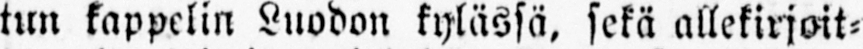tun kappelin Luodon kylässä, sekä allekirjoit-
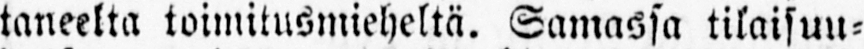taneelta toimitusmieheltä. Samassa tilaisuu-
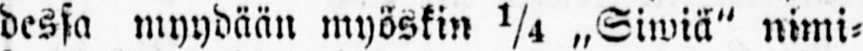dessa myydään myöskin ¼ „Siwiä" nimi-
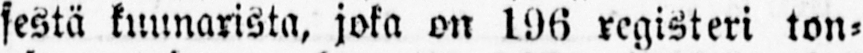sestä kuunarista, joka on 196 rekisteri ton-
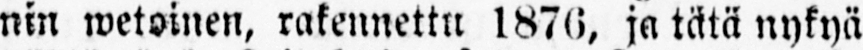nin wetoinen, rakennettu 1876, ja tätä nykyä
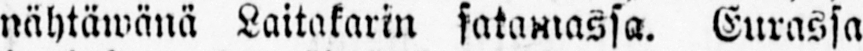nähtäwänä Laitakarin satamassa. Eurassa
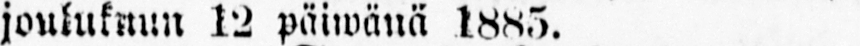joulukuun 12 päiwänä 1885.
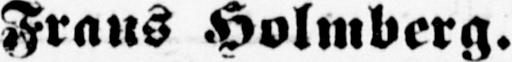Frans Holmberg.
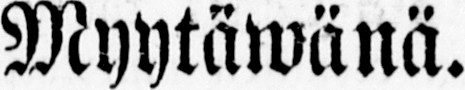Myytäwänä.
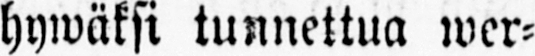Littoisten hywäksi tunnettua wer-
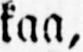kaa,
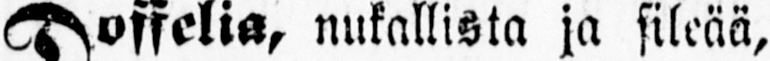Doffelia, nukallista ja sileää,
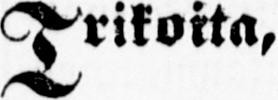Trikoita,
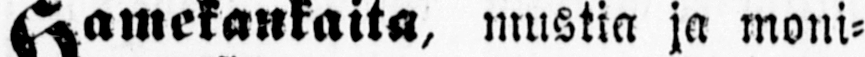Hamekankaita mustia ja moni-
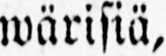wärisiä,
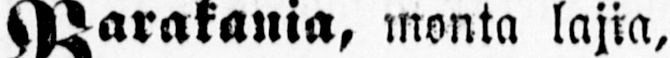Barakania monta lajia,
